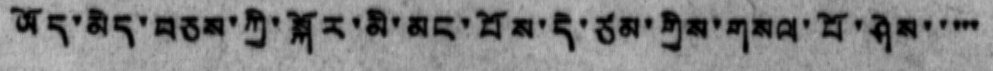ཡོད་མེད་བཅས་ཀྱི་སྐོར་མི་མང་པོས་དེ་ཙམ་གྱིས་གསལ་པོ་ཤེས་་་་་
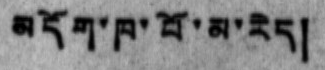མདོག་ཁ་པོ་མ་རེད།
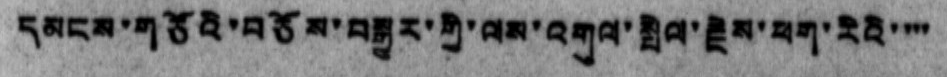དམངས་གཙོའི་བཅོས་བསྒྱུར་གྱི་ལས་འགུལ་སྤེལ་རྗེས་ཕག་རིའི་་་་
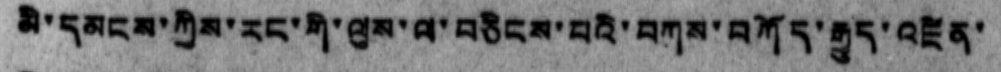མི་དམངས་ཀྱིས་རང་གི་ལུས་ལ་བཅིངས་པའི་བཀས་བཀོད་རྒྱུད་འཛིན་
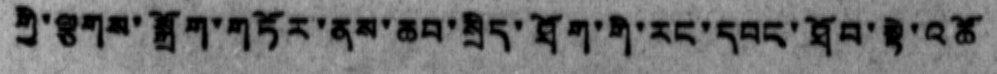གྱི་ལྕགས་སྒྲོག་གཏོར་ནས་ཆབ་སྲིད་ཐོག་གི་རང་དབང་ཐོབ་སྟེ་འཚོ
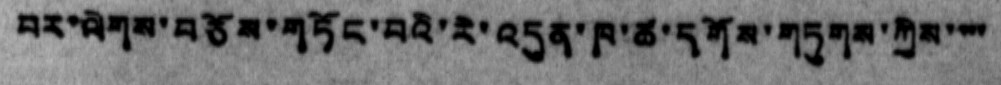བར་ལེགས་བཅོས་གཏོང་བའི་རེ་འདུན་ཁ་ཚ་དགོས་གཏུགས་ཀྱིས་་་་
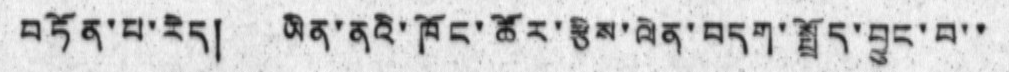བཏོན་པ་རེད། ཡིན་ནའི་ཁོང་ཚོར་རྩིས་ལེན་བདག་སྤྲོད་བྱུང་བ་་
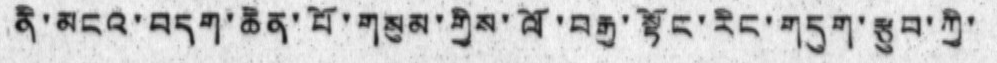ནི་མངའ་བདག་ཆེན་པོ་གསུམ་གྱིས་ལོ་བརྒྱ་སྟོང་རིང་གདུག་རྩུབ་ཀྱི་
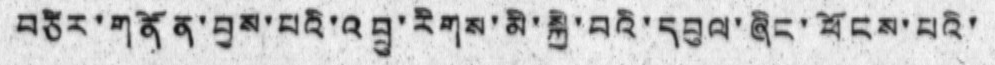བཙིར་གནོན་བྱས་པའི་འབྲུ་རིགས་མི་སྐྱེ་བའི་དབུལ་ཞིང་ཕོངས་པའི་
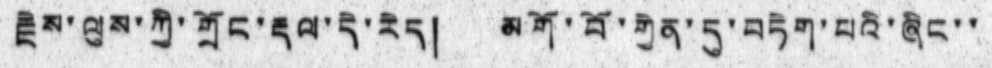རྗེས་ལུས་ཀྱི་གྲོང་རྡལ་དེ་རེད། མགོ་བོ་གྱེན་དུ་བཏེག་པའི་ཞིང་་
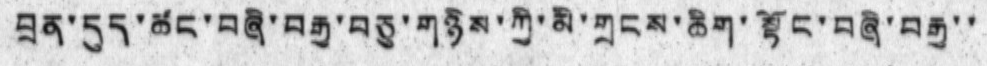བྲན་དུད་ཚང་བཞི་བརྒྱ་བཅུ་གཉིས་ཀྱི་མི་གྲངས་ཆིག་སྟོང་བཞི་བརྒྱ་་
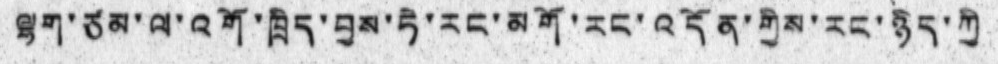ལྷག་ཙམ་ལ་འགོ་ཁྲིད་བྱས་ཏེ་རང་མགོ་རང་འདོན་གྱིས་རང་ཉིད་ཀྱི
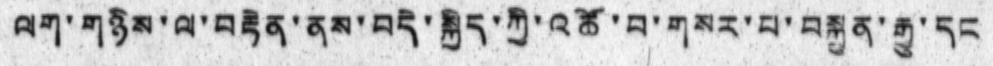ལག་གཉིས་ལ་བརྟེན་ནས་བདེ་སྐྱིད་ཀྱི་འཚོ་བ་གསར་པ་བསྐྲུན་རྒྱུ་དང
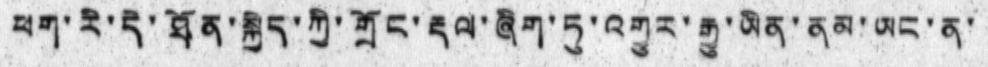ཕག་རི་དེ་ཐོན་སྐྱེད་ཀྱི་གྲོང་རྡལ་ཞིག་ཏུ་འགྱུར་རྒྱུ་ཡིན་ནམ་ཡང་ན་
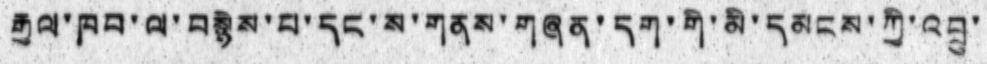རྒྱལ་ཁབ་ལ་བསྙེས་པ་དང་ས་གནས་གཞན་དག་གི་མི་དམངས་ཀྱི་འབྲུ་
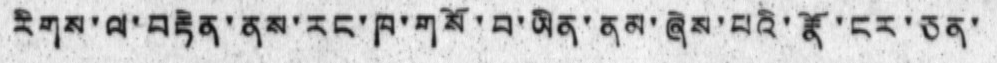རིགས་ལ་བརྟེན་ནས་རང་ཁ་གསོ་བ་ཡིན་ནམ་ཞེས་པའི་རྣི་ངར་ཅན་
